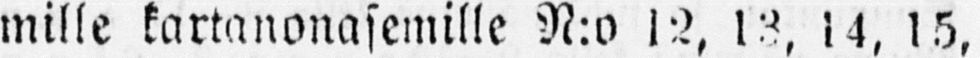mille kartanonasemille N:o 12, 13, 14, 15,
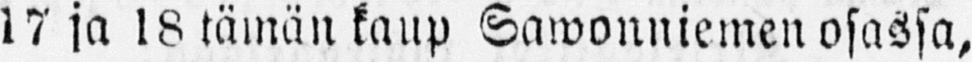l7 ja 18 tämän kaup Sawonniemen osassa,
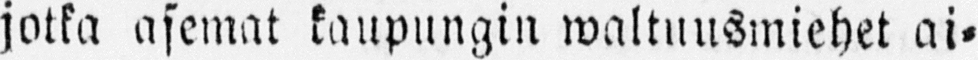jotka asemat kaupungin waltuusmiehet ai-
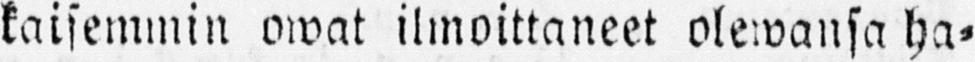kaisemmin owat ilmoittaneet olewansa ha-
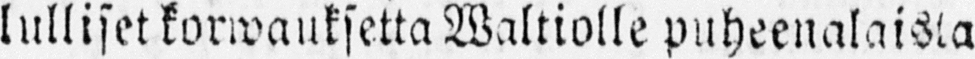lulliset korwauksetta Waltiolle puheenalaista
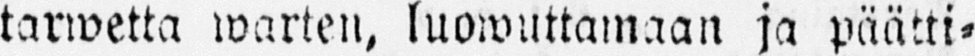tarwetta warten, luowuttamaan ja päätti-
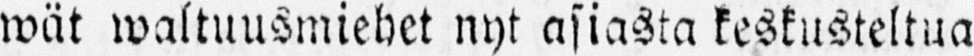wät waltuusmiehet nyt asiasta keskusteltua
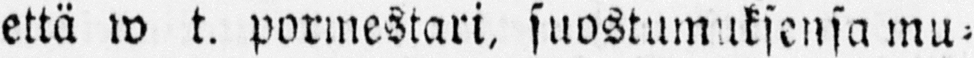että w t. pormestari, suostumuksensa mu-
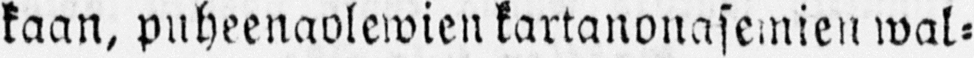kaan, puheenaolewien kartanonasemien wal-
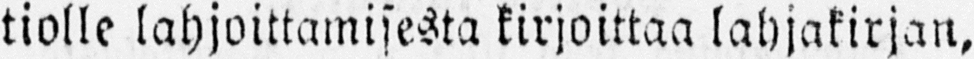tiolle lahjoittamisesta kirjoittaa lahjakirjan,
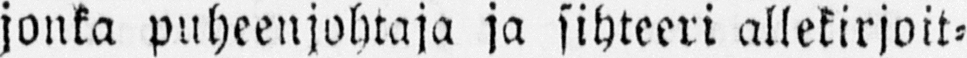jonka puheenjohtaja ja sihteeri allekirjoit-
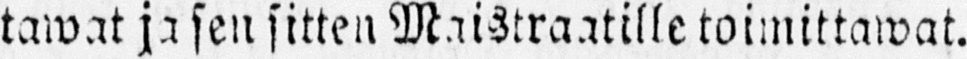tawat ja sen sitten Maistraatille toimittawat.
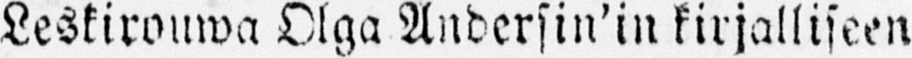Leskirouwa Olga Andersin'in kirjalliseen
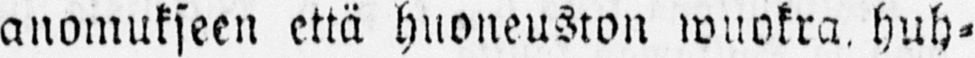anomukseen että huoneuston wuokra, huh-
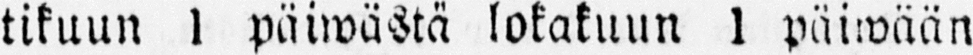tikuun 1 päiwästä lokakuun 1 päiwään
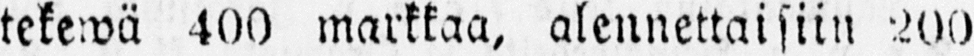tekewä 400 markkaa, alennettaisiin 200
